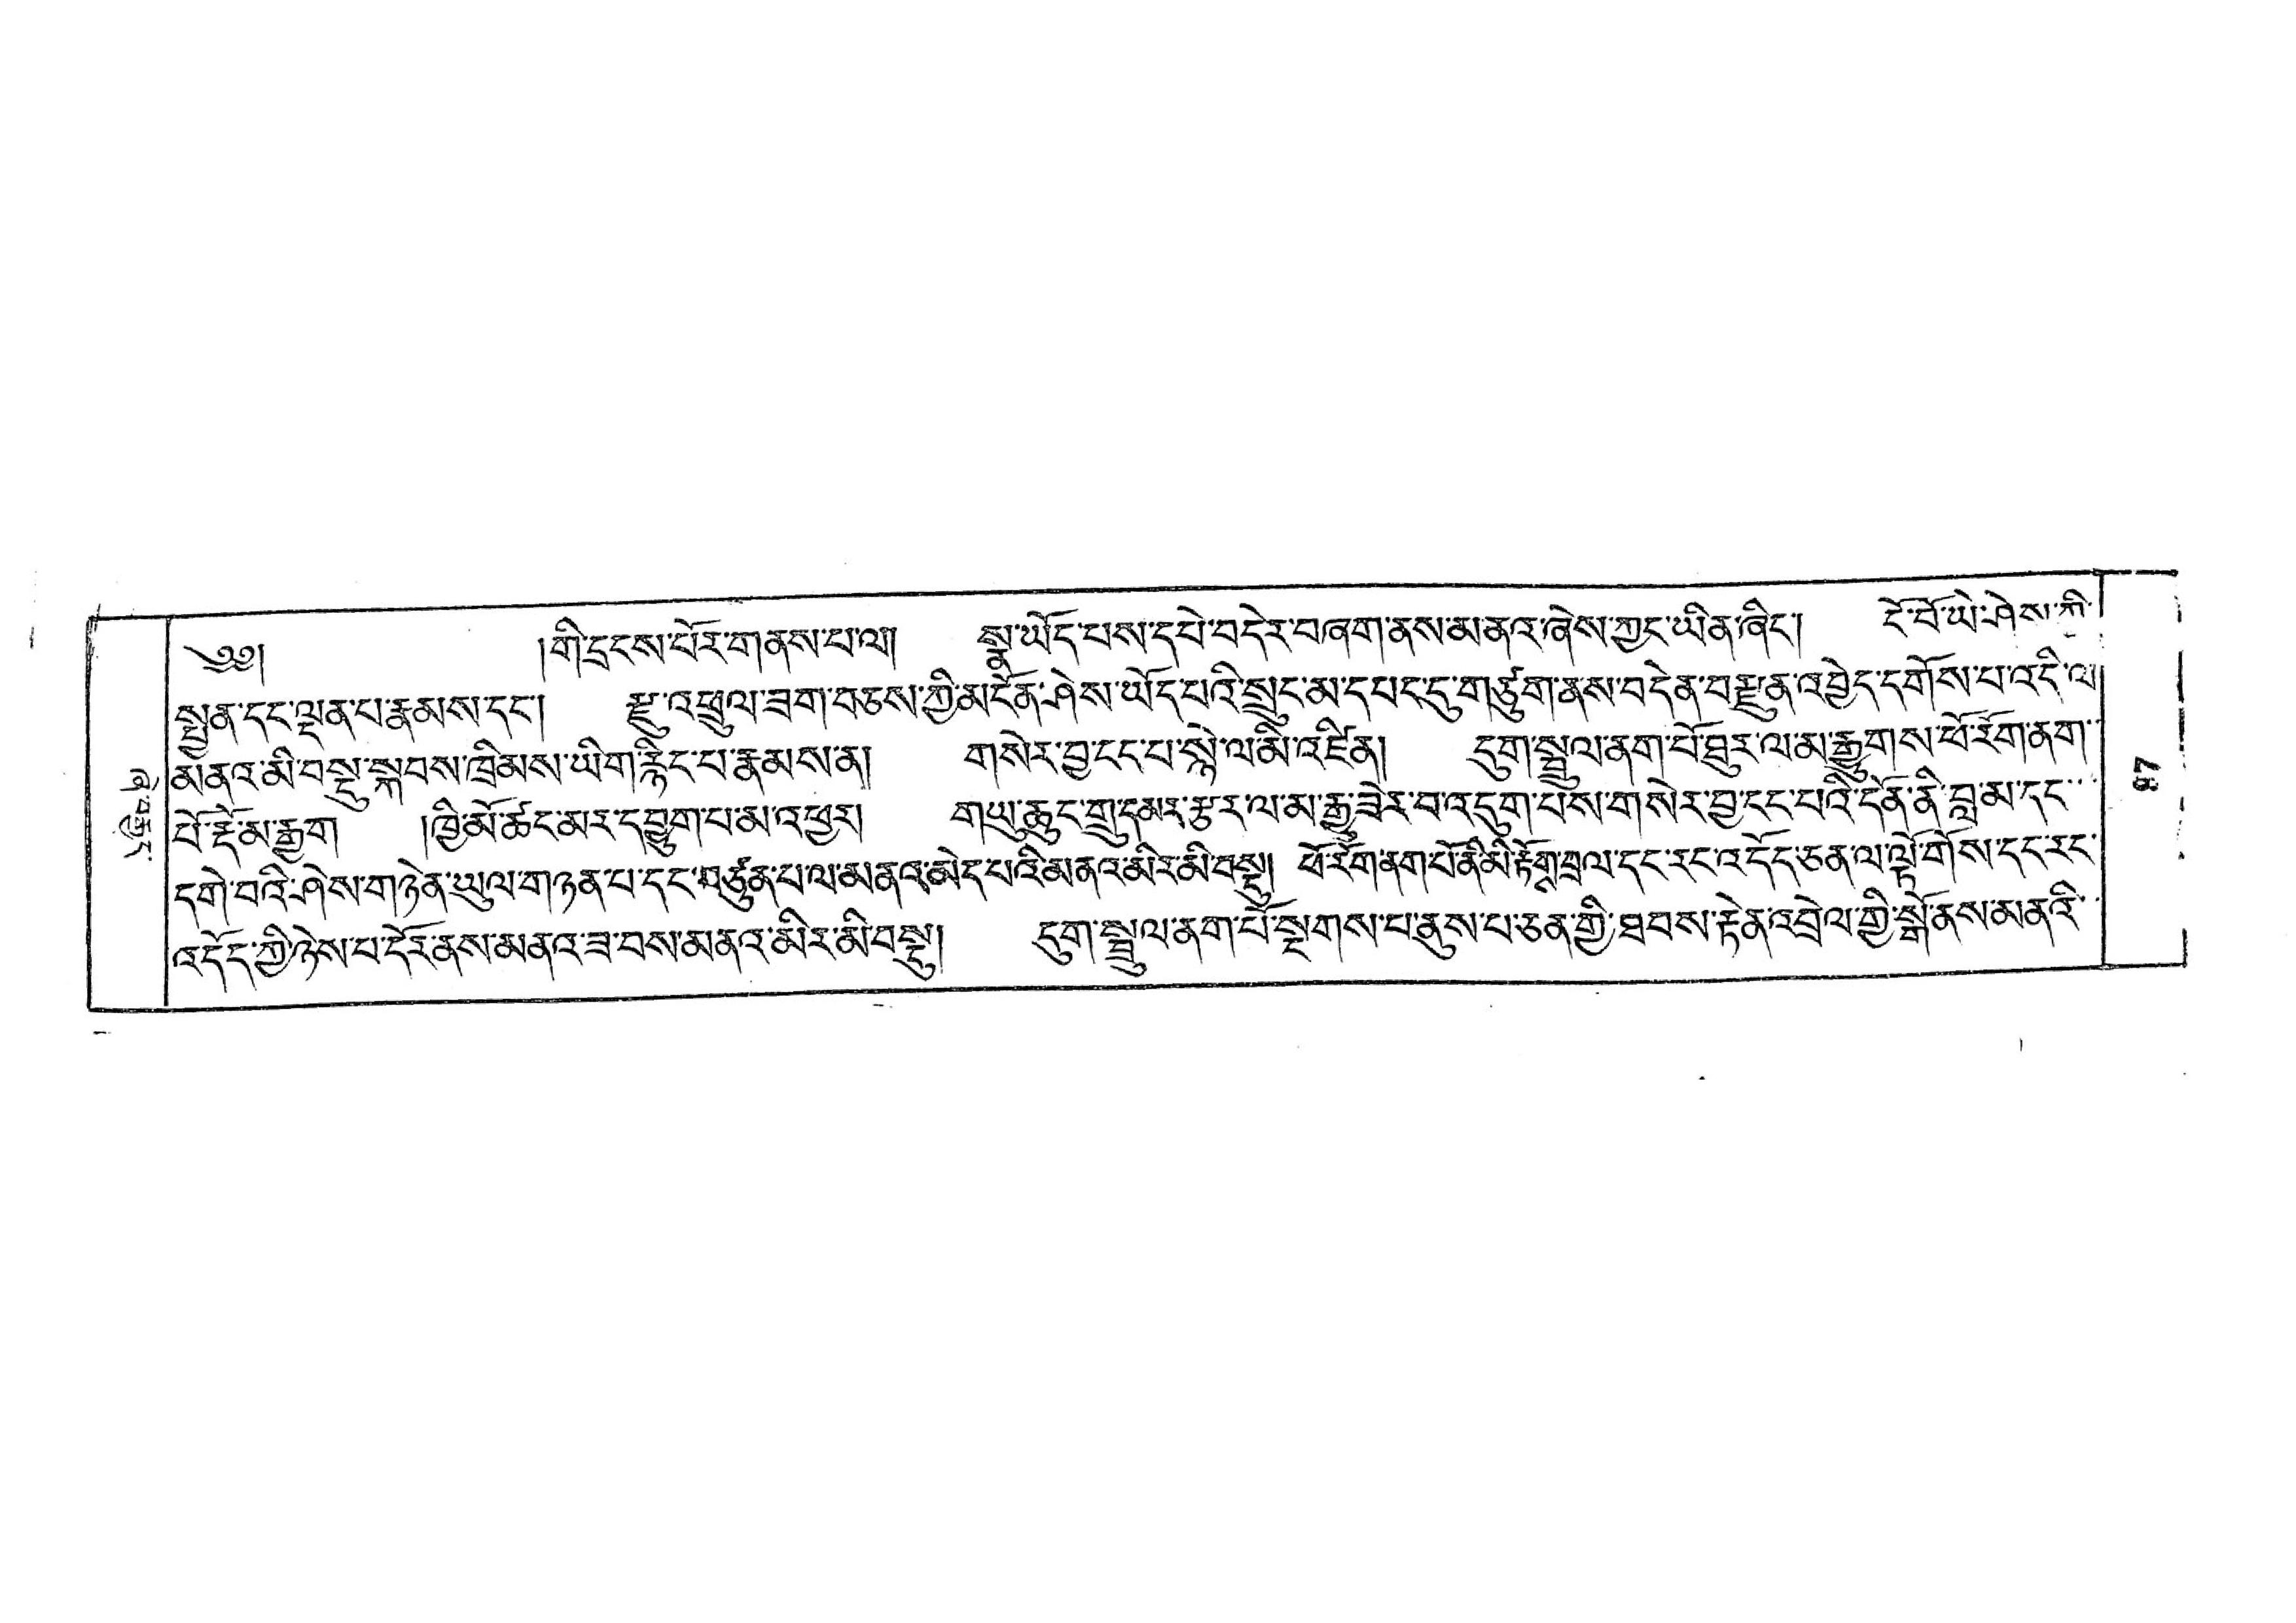ཞེ་བརྒྱད་
༄༅།  །གི་དྲངས་པོར་གནས་པ་ལ། སྣ་ཡོད་པས་དཔེ་བདེར་བཞག་ནས་མནའ་ཞེས་ཀྱང་ཡིན་ཞིང་། ངོ་བོ་ཡེ་ཤེས་ཀྱི་
སྤྱན་དང་ལྡན་རྣམས་དང་། རྫུ་འཕྲུལ་ཟག་བཅས་ཀྱི་མངོན་ཤེས་ཡོདཔའི་སྲུང་མ་དཔང་དུ་གཙུག་ནས་བདེན་བརྫུན་འབྱེད་དགོས་པ་འདི་ལ་
མནའ་མི་བསྡུ་སྐབས་ཁྲིམས་ཡིག་རྙིང་པ་རྣམས་ན། གསེར་བྱ་ངང་པ་སྙེ་ལ་མི་འཛིན། དུག་སྦྲུལ་ནག་པོ་ཐུར་ལ་མ་རྒྱུགས་ཕོ་རོག་ནག་་
པོ་རྡོ་མ་རྒྱག །ཁྱི་མོ་ཚང་མར་དབྱུག་པ་མ་འཕྱར། གཡུ་ཆུང་གྲུ་དམར་རྩར་ལ་མ་རྒྱུ་ཟེར་བ་འདུག་པས་གསེར་བྱ་ངང་པའི་དོན་ནི་བླ་མ་དང་་་
དགེ་བའི་ཤེས་གཉེན་ཡུལ་གཉན་པ་དང་བཙུན་པ་ལ་མནའ་མེད་པའི་མནའ་མིར་མི་བསྡུ། ཕོ་རོག་ནག་པོ་ནི་མི་རྟོགས་བྲལ་དང་རང་འདོད་ཅན་ལ་ལྟོ་གོས་དང་རང་
འདོད་གྱི་ཉེས་པ་དོར་ནས་མནའ་ཟ་བས་མནའ་མིར་མི་བསྡུ། དུག་སྦྲུལ་ནག་པོ་སྔགས་པ་ནུས་པ་ཅན་གྱི་ཐབས་རྟེན་འབྲེལ་གྱི་སྒོ་ནས་མནའི་་
